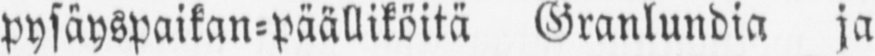pysäyspaikan-päälliköitä Granlundia ja
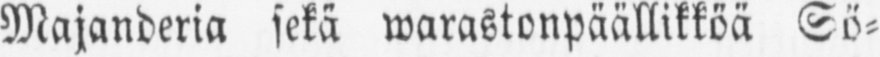Majanderia sekä warastonpäällikköä Sö-
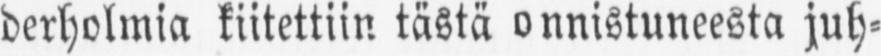derholmia kiitettiin tästä onnistuneesta juh-
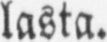lasta.
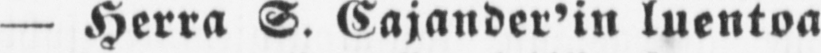— Herra S. Cajander’in luentoa
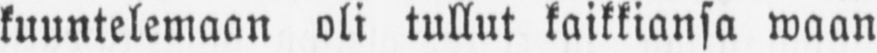kuuntelemaan oli tullut kaikkiansa waan
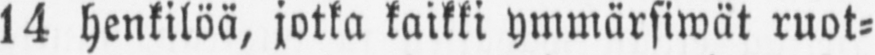14 henkilöä, jotka kaikki ymmärsiwät ruot-
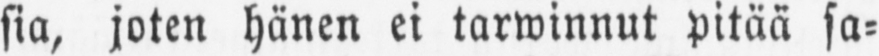sia, joten hänen ei tarwinnut pitää sa-
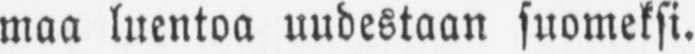maa luentoa uudestaan suomeksi.
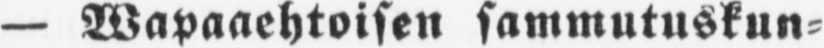— Wapaaehtoisen sammutuskun-
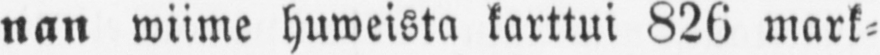nan wiime huweista karttui 826 mark-
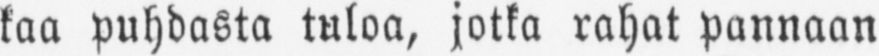kaa puhdasta tuloa, jotka rahat pannaan
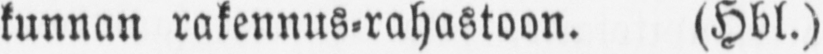kunnan rakennus-rahastoon. (Hbl.)
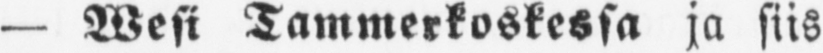— Wesi Tammerkoskessa ja siis
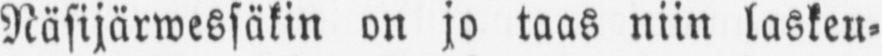Näsijärwessäkin on jo taas niin laskeu-
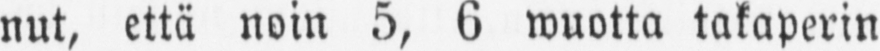nut, että noin 5, 6 wuotia takaperin
